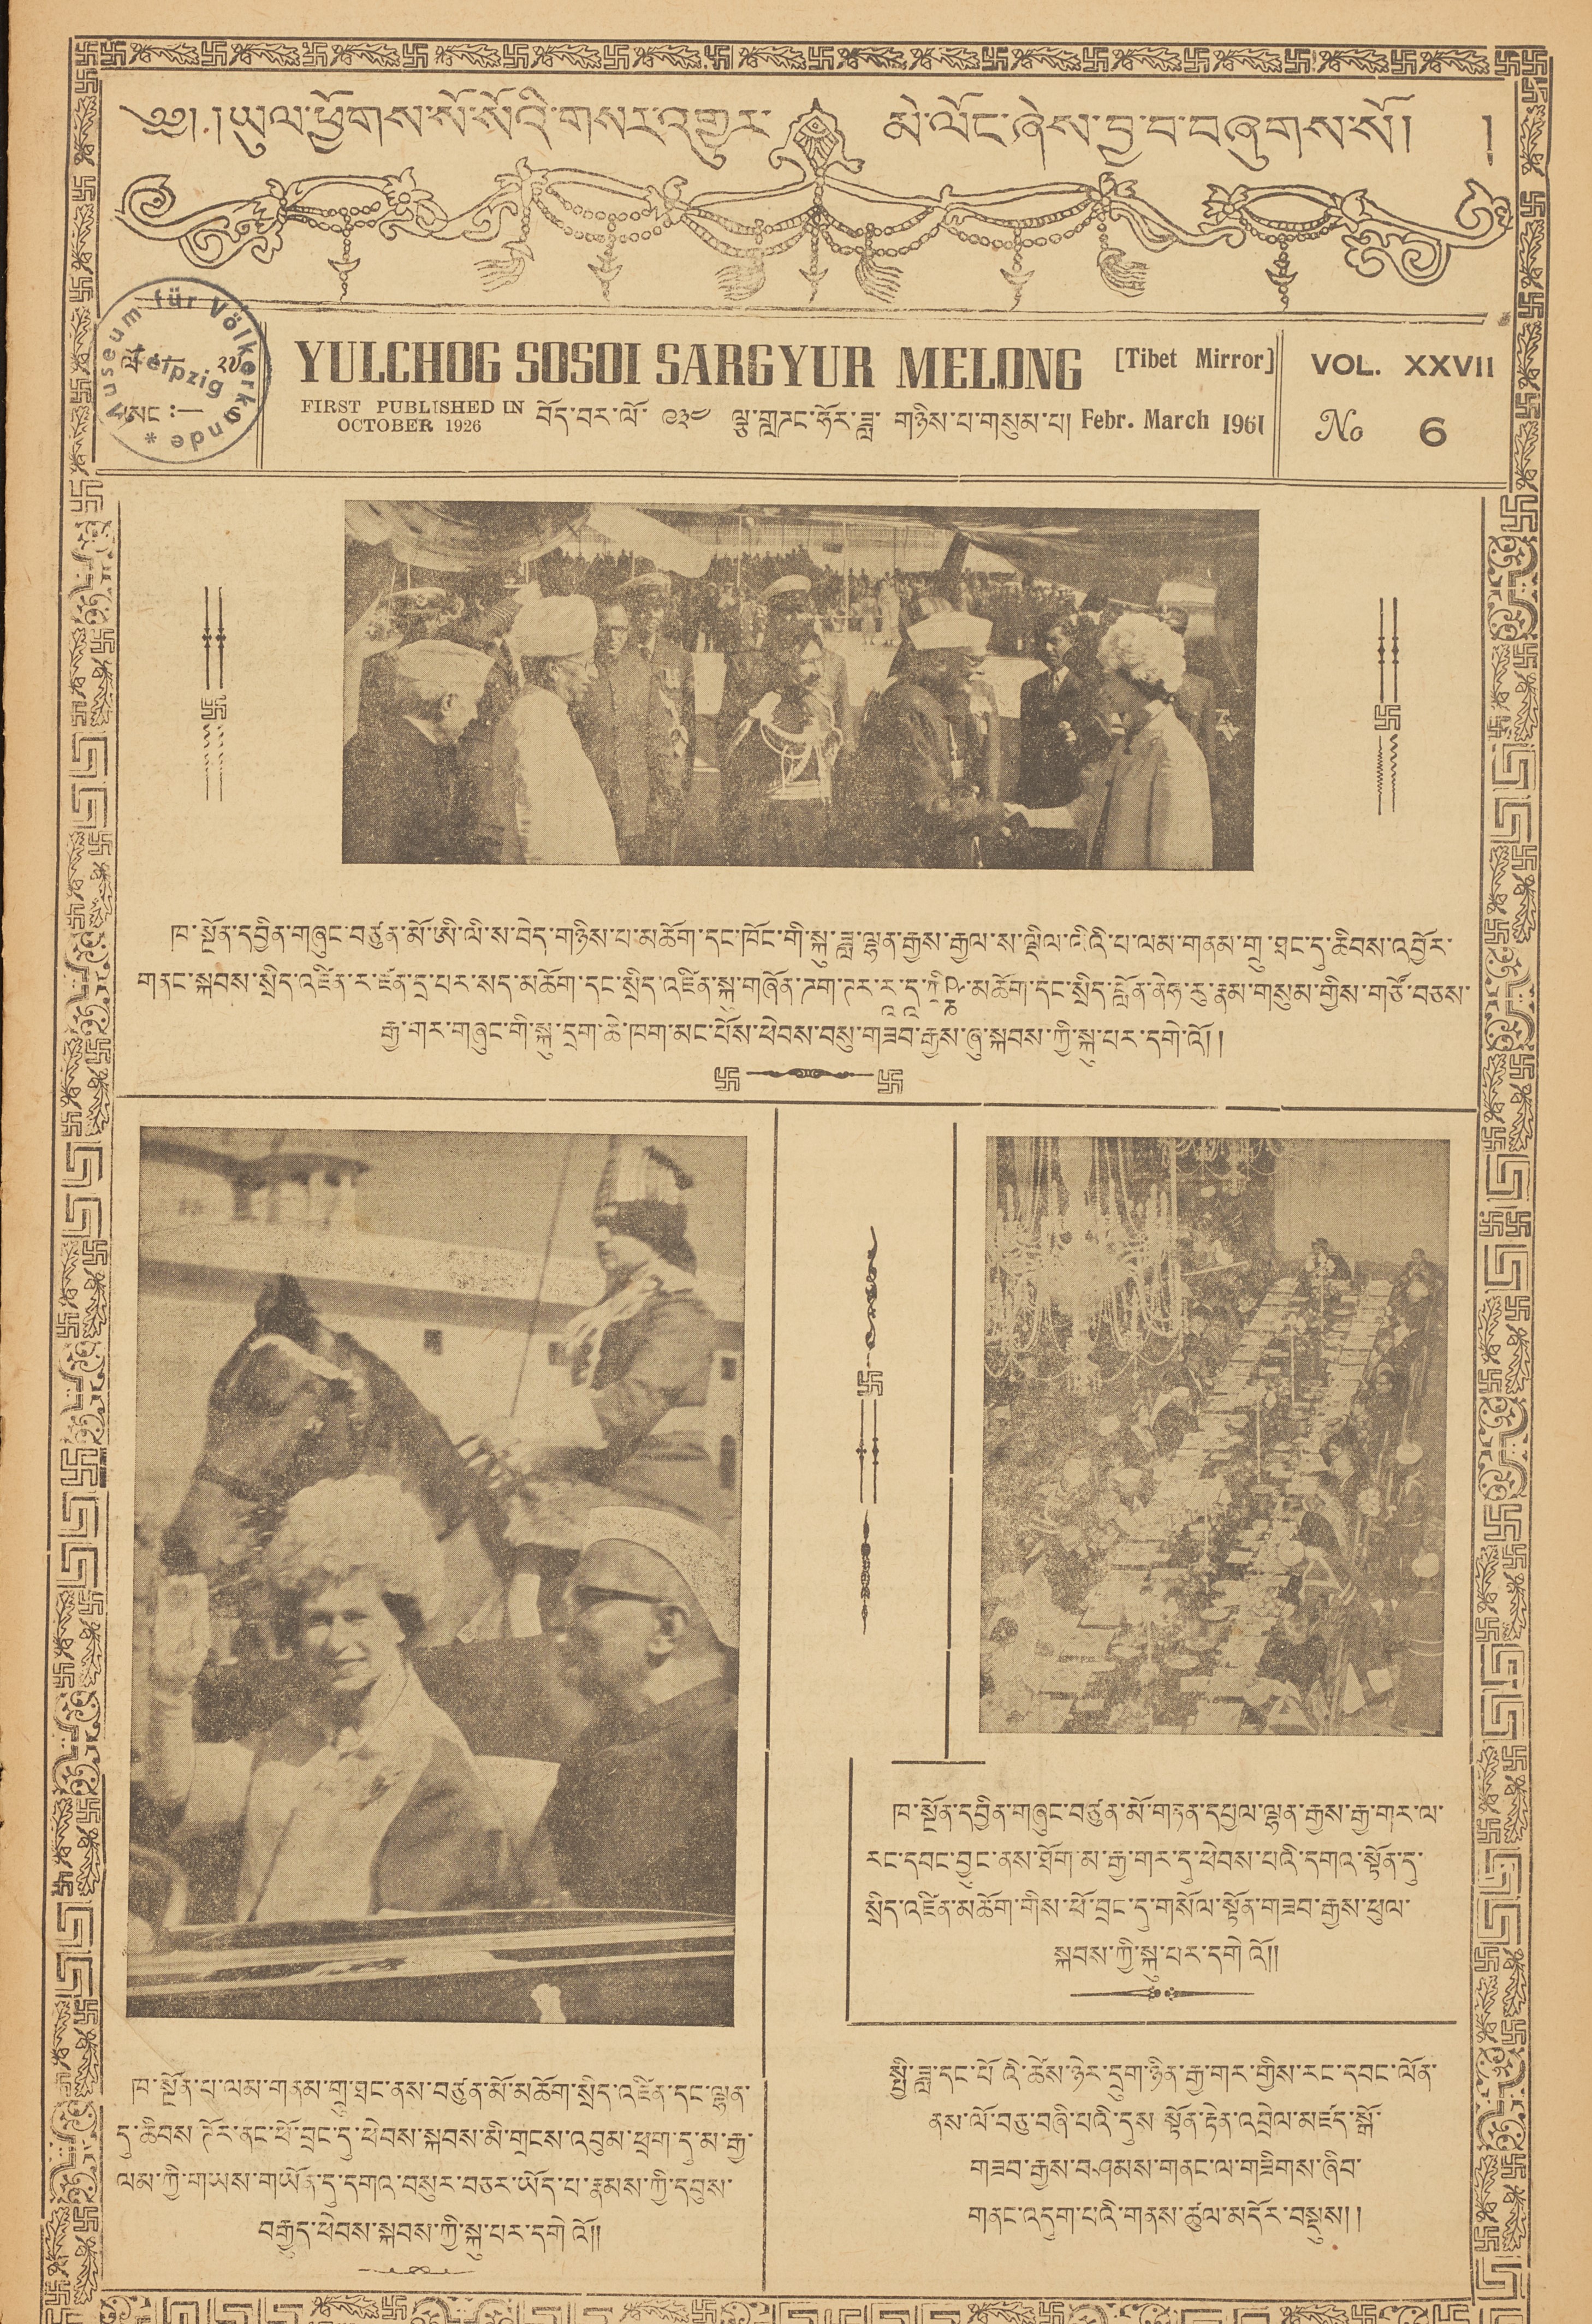༄༅། །ཡུལ་ཕྱོགས་སོ་སོའི་གསར་འགྱུར་ མེ་ལོང་ཞེས་བྱ་བ་བཞུགས་སོ། །
ལོ་ :— ༢༧
ཨང :— ༦
YULCHOG SOSOI SARGYUR MELONG [Tibet Mirror]
FIRST PUBLISHED IN
OCTOBER 1926
བོད་བར་ལོ་ ༩༣༤ ལྕ་གླཌང་ཧོར་ཟླ་ གཉིས་པ་གསུམ་པ། Febr. March 1961
Vol. XXVII
No 6
ཁ་སྔོན་དབྱིན་གཞུང་བཙུན་མོ་ཨི་ལི་ས་བེད་གཉིས་པ་མཆོག་དང་ཁོང་གི་སྐུ་ཟླ་ལྷན་རྒྱས་རྒྱལ་ས་ལྡིལ་ལིའི་པ་ལམ་གནམ་གྲུ་ཐང་དུ་ཆིབས་འབྱོར་
གནང་སྐབས་སྲིད་འཛིན་ར་ཛན་དྲ་པར་སད་མཆོག་དང་སྲིད་འཛིན་གཞོན་ཌག་ཊར་རཱ་དཱ་ཀྲིཥྞ་མཆོག་དང་སྲིད་བློན་ནེཧ་རུ་རྣམ་གསུམ་གྱིས་གཙོ་བཅས་
རྒྱ་གར་གཞུང་གི་སྐུ་དྲག་ཆེ་ཁག་མང་པོས་ཕེབས་བསུ་གཟབ་རྒྱས་ཞུ་སྐབས་ཀྱི་སྐུ་པར་དགེ་འོ།།
ཁ་སྔོན་པ་ལམ་གནམ་གྲུ་ཐང་ནས་བཙུན་མོ་མཆོག་སྲིད་འཛིན་དང་ལྷན་
དུ་ཆིབས་ཊོར་ནང་ཕོ་བྲང་དུ་ཕེབས་སྐབས་མི་གྲངས་འབུམ་ཕྲག་དུ་མ་རྒྱ་
ལམ་ཀྱི་གཡས་གཡོན་དུ་དགའ་བསུར་བཅར་ཡོད་པ་རྣམས་ཀྱི་དབུས་
བརྒྱུད་ཕེབས་སྐབས་ཀྱི་སྐུ་པར་དགེའོ།།
ཁ་སྔོན་དབྱིན་གཞུང་བཙུན་མོ་གཏན་དཔྱལ་ལྷན་རྒྱས་རྒྱ་གར་ལ་
རང་དབང་བྱུང་ནས་ཐོག་མ་རྒྱ་གར་དུ་ཕེབས་པའི་དགའ་སྟོན་དུ་
སྲིད་འཛིན་མཆོག་གིས་ཕོ་བྲང་དུ་གསོལ་སྟོན་གཟབ་རྒྱས་ཕུལ་
སྐབས་ཀྱི་སྐུ་པར་དགེའོ།།
སྤྱི་ཟླ་དང་པོའི་ཚེས་ཉེར་དྲུག་ཉིན་རྒྱ་གར་གྱིས་རང་དབང་ལོན་
ནས་ལོ་བཅུ་བཞི་པའི་དུས སྟོན་རྟེན་འབྲེལ་མཛད་སྒོ་
གཟབ་རྒྱས་བཤམས་གནང་ལ་གཟིགས་ཞིབ་
གནང་འདུག་པའི་གནས་ཚུལ་མདོར་བསྡུས།།
